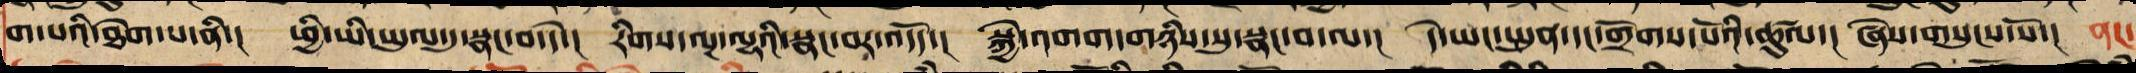ག་པའི་ཐེག་པ་ནི་། ཕྱི་ཡི་ཡུལ་དུ་སྣང་བ་དེ་། རིགས་ལྔ་ལྷའི་སྣང་བར་འདོད་། སྐྱེ་འགག་གཉིས་སུ་སྣང་བ་ལ་། དེ་ཡང་སྤུན་དང་གྲོགས་པོའི་ཚུལ་། ཞེས་གསུངས་སོ་། ནང་
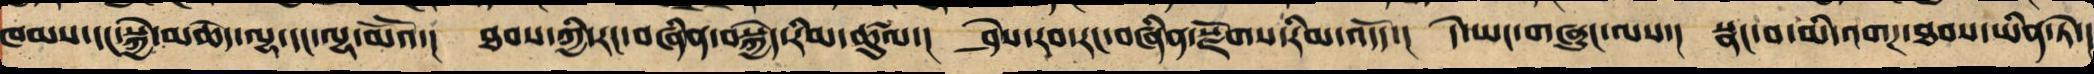ཁམས་དང་སྐྱེ་མཆེད་ལྷ་དང་ལྷ་མོའོ་། ཐབས་ཀྱི་རང་བཞིན་བསྐྱེད་རིམ་ཚུལ་། ཤེས་རབ་རང་བཞིན་སྫོགས་རིམ་འདོད་། དེ་ཡང་གཞུང་ལས་། སྣང་བ་མི་འགཌ་ཐབས་ཡིན་ཏེ་།
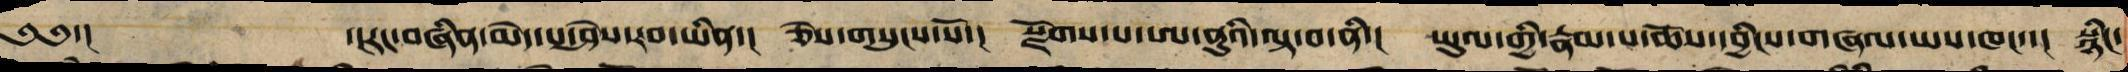༄༅་། རང་བཞིན་མེད་པ་ཤེས་རབ་ཡིན་། ཞེས་གསུངས་སོ་། སྫོགས་པ་ཨ་ནུའི་ལྟ་བ་ནི་། ཡུལ་གྱི་རྣམ་པ་ཆོས་དབྱིངས་གཞལ་ཡས་ཁང་་། སྙིང་
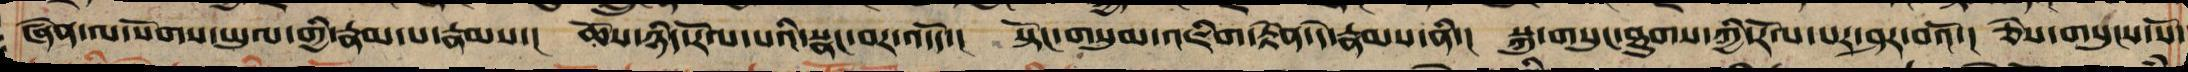ཞེན་ལ་སོགས་ཡུལ་གྱི་རྣམ་པ་རྣམས་། ཆོས་ཉིད་རོལ་པའི་སྣང་བར་འདོད་། སྟོང་གསུམ་འཇིག་རྟེན་དེ་རྣམས་ནི་། སྐུ་གསུང་ཐུགས་ཀྱི་རོལ་པར་ཤར་བའོ་། ཅེས་གསུངས་སོ་
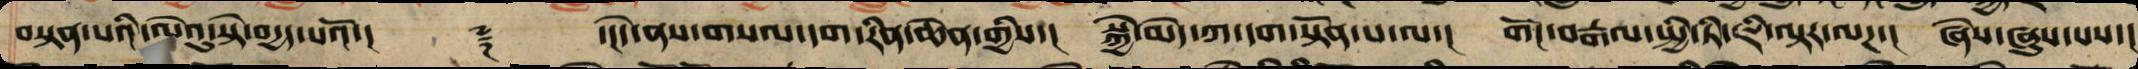བསྟན་པའི་ལེའུ་སྟེ་བརྒྱད་པའོ་།།  ༈  ་།།དེ་ནས་གསལ་དག་རིན་ཆེན་གྱིས་། སྐྱེ་མེད་ཀ་དག་སྟོན་པ་ལ་།  གོང་བརྒལ་སྤྱི་ཏི་ཇི་ལྟར་ལགས་། ཞེས་ཞུས་པས་།
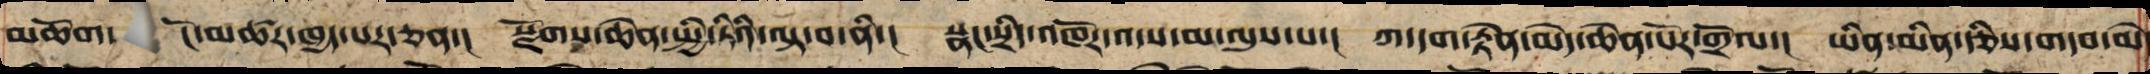མཆོག་ངོ་མཚར་ཁྱད་པར་ཅན་། སྫོགས་ཆེན་སྤྱི་ཏིའི་ལྟ་བ་ནི་། སྣང་སྲིད་འཁོར་འདས་མ་ལུས་པ་། ཀ་དག་རྟེན་མེད་ཆེན་པོར་གྲོལ་། ཡིན་མིན་རྩིས་གདབ་མེ
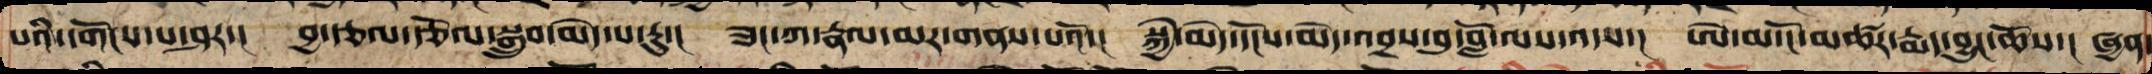པའི་དགོངས་པ་ཤར་། བྱ་བཙལ་རྩོལ་སྒྲུབ་མེད་པ་རུ་། ཟང་ཀ་རྣལ་མར་གནས་པའོ་། སྐྱེ་མེད་དངོས་མེད་འབྲས་བུ་བློ་ལས་འདས་། ཨེ་མ་ངོ་མཚར་རྨད་བྱུང་ཆོས་། ཞྱན་
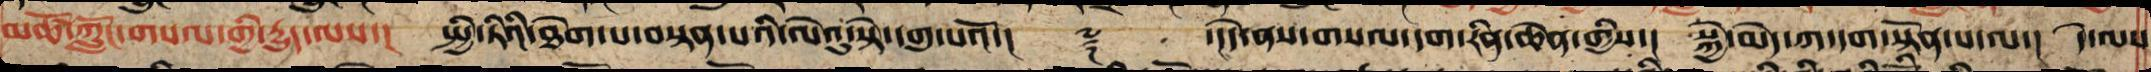མཚོ་ཀློང་གསལ་གྱི་རྒྱུད་ལས་། སྤྱི་ཏིའི་ཐེག་པ་བསྟན་པའི་ལེའུ་སྟེ་དགུ་པའོ་།། ༈ ་།།དེ་ནས་གསལ་དག་རིན་ཆེན་གྱིས་། སྐྱེ་མེད་ཀ་དག་སྟོན་པ་ལ་། དེ་ལས
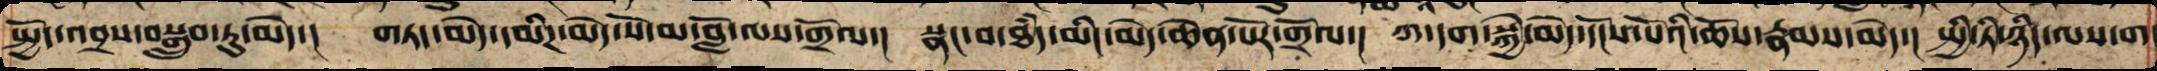སྤྱོད་འབྲས་བསྒྲུབ་ཏུ་མེད་། གཏད་མེད་དམིཌ་མེད་སོ་མ་བློ་ལས་གྲོལ་། སྣང་བ་ཐཾད་མིང་མེད་ཆེན་པོར་གྲོལ་། ཀ་དག་སྐྱེ་མེད་དངོས་པོའི་ཆོས་རྣམས་མེད་། སྤྱི་ཏི་ཉིད་ལ་ག
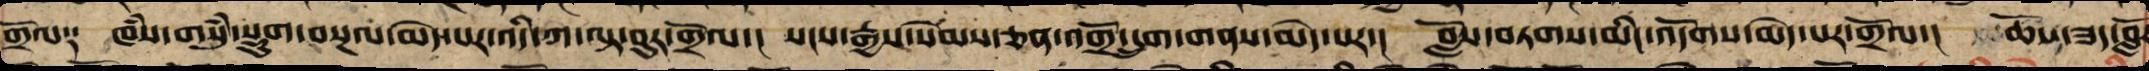གྲོལ༑ ཁཾས་གསུཾ་སྡུག་བསྔལ་མེད་པར་འདི་ཀ་ལྟ་བུར་གྲོལ་། སངས་རྒྱས་སེམས་ཅན་འགྲོ་དྲུག་གནས་མེད་པར་། བློས་བཏགས་མིང་འདོགས་མེད་པར་གྲོལ་། ཆོས་ཟད་བློ་
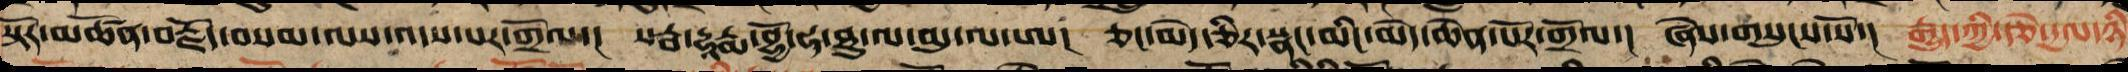སྟོར་མཚོན་བརྗོད་བསམ་ལས་འདས་པར་གྲོལ་། སརྦ་དྷརྨཱ་བྷྱོ་ཧ་ཐུ་ལ་མུ་ལ་ཨ་། ཅང་མེད་ཅིར་སྣང་མིང་མེད་ཆེན་པོར་གྲོལ་། ཞེས་གསུངས་སོ་། རྒྱུད་ཀྱི་རྩེ་རྒྱལ་ཉི
